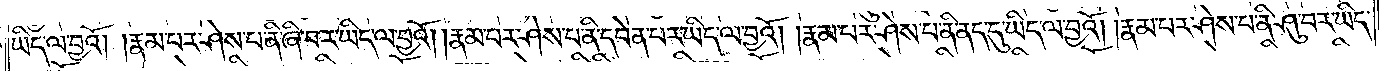ཡིད་ལ་བྱའོ། །རྣམ་པར་ཤེས་པ་ནི་ཞི་བར་ཡིད་ལ་བྱའོ། །རྣམ་པར་ཤེས་པ་ནི་དབེན་པར་ཡིད་ལ་བྱའོ། །རྣམ་པར་ཤེས་པ་ནི་ནད་དུ་ཡིད་ལ་བྱའོ། །རྣམ་པར་ཤེས་པ་ནི་ཤུ་བར་ཡིད་
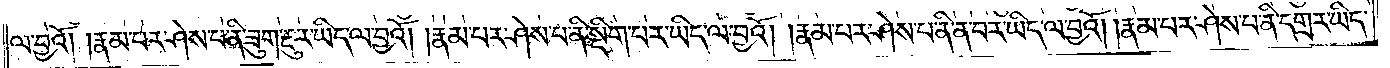ལ་བྱའོ། །རྣམ་པར་ཤེས་པ་ནི་ཟུག་རྔུར་ཡིད་ལ་བྱའོ། །རྣམ་པར་ཤེས་པ་ནི་སྡིག་པར་ཡིད་ལ་བྱའོ། །རྣམ་པར་ཤེས་པ་ནི་ན་བར་ཡིད་ལ་བྱའོ། །རྣམ་པར་ཤེས་པ་ནི་དགྲར་ཡིད་
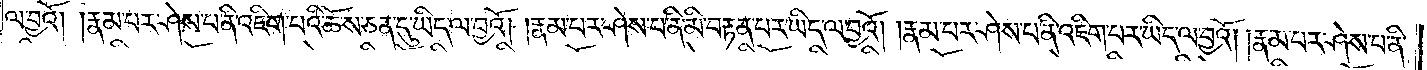ལ་བྱའོ། །རྣམ་པར་ཤེས་པ་ནི་འཇིག་པའི་ཆོས་ཅན་དུ་ཡིད་ལ་བྱའོ། །རྣམ་པར་ཤེས་པ་ནི་མི་བརྟན་པར་ཡིད་ལ་བྱའོ། །རྣམ་པར་ཤེས་པ་ནི་འཇིག་པར་ཡིད་ལ་བྱའོ། །རྣམ་པར་ཤེས་པ་ནི་
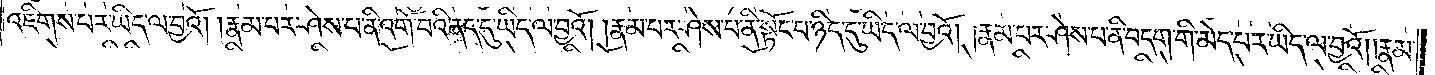འཇིགས་པར་ཡིད་ལ་བྱའོ། །རྣམ་པར་ཤེས་པ་ནི་འགོ་བའི་ནད་དུ་ཡིད་ལ་བྱའོ། །རྣམ་པར་ཤེས་པ་ནི་སྟོང་པ་ཉིད་དུ་ཡིད་ལ་བྱའོ། །རྣམ་པར་ཤེས་པ་ནི་བདག་གི་མེད་པར་ཡིད་ལ་བྱའོ། །རྣམ་
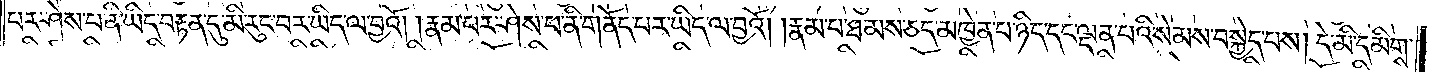པར་ཤེས་པ་ནི་ཡིད་བརྟན་དུ་མི་རུང་བར་ཡིད་ལ་བྱའོ། །རྣམ་པར་ཤེས་པ་ནི་གནོད་པར་ཡིད་ལ་བྱའོ། །རྣམ་པ་ཐམས་ཅད་མཁྱེན་པ་ཉིད་དང་ལྡན་པའི་སེམས་བསྐྱེད་པས། དེ་མི་དམིགས་
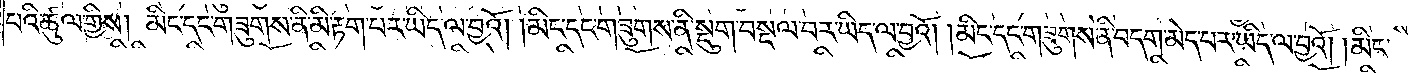པའི་ཚུལ་གྱིས། མིང་དང་གཟུགས་ནི་མི་རྟག་པར་ཡིད་ལ་བྱའོ། །མིང་དང་གཟུགས་ནི་སྡུག་བསྔལ་བར་ཡིད་ལ་བྱའོ། །མིང་དང་གཟུགས་ནི་བདག་མེད་པར་ཡིད་ལ་བྱའོ། །མིང་
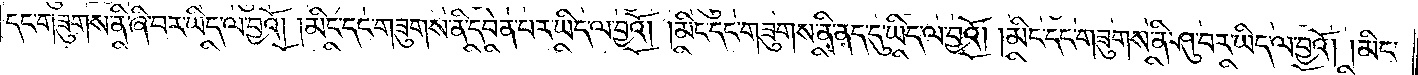དང་གཟུགས་ནི་ཞི་བར་ཡིད་ལ་བྱའོ། །མིང་དང་གཟུགས་ནི་དབེན་པར་ཡིད་ལ་བྱའོ། །མིང་དང་གཟུགས་ནི་ནད་དུ་ཡིད་ལ་བྱའོ། །མིང་དང་གཟུགས་ནི་ཤུ་བར་ཡིད་ལ་བྱའོ། །མིང་
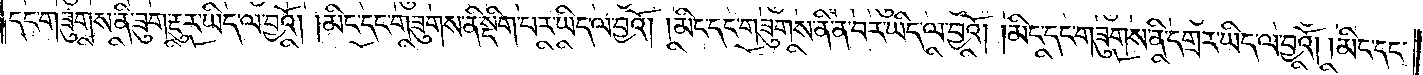དང་གཟུགས་ནི་ཟུག་རྔུར་ཡིད་ལ་བྱའོ། །མིང་དང་གཟུགས་ནི་སྡིག་པར་ཡིད་ལ་བྱའོ། །མིང་དང་གཟུགས་ནི་ན་བར་ཡིད་ལ་བྱའོ། །མིང་དང་གཟུགས་ནི་དགྲར་ཡིད་ལ་བྱའོ། །མིང་དང་
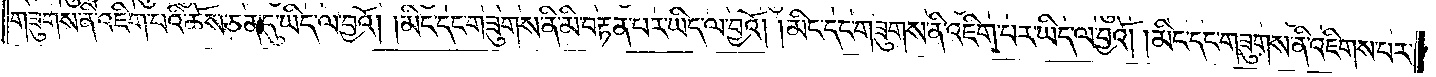གཟུགས་ནི་འཇིག་པའི་ཆོས་ཅན་དུ་ཡིད་ལ་བྱའོ། །མིང་དང་གཟུགས་ནི་མི་བརྟན་པར་ཡིད་ལ་བྱའོ། །མིང་དང་གཟུགས་ནི་འཇིག་པར་ཡིད་ལ་བྱའོ། །མིང་དང་གཟུགས་ནི་འཇིགས་པར་
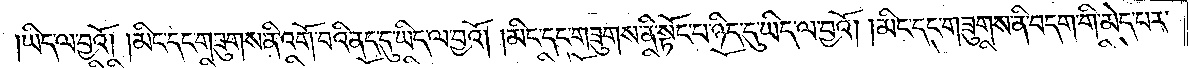ཡིད་ལ་བྱའོ། །མིང་དང་གཟུགས་ནི་འགོ་བའི་ནད་དུ་ཡིད་ལ་བྱའོ། །མིང་དང་གཟུགས་ནི་སྟོང་པ་ཉིད་དུ་ཡིད་ལ་བྱའོ། །མིང་དང་གཟུགས་ནི་བདག་གི་མེད་པར་
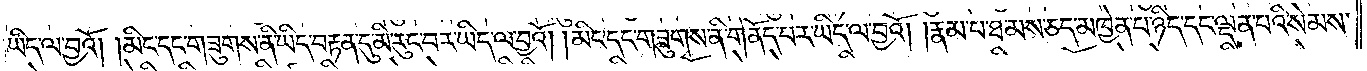ཡིད་ལ་བྱའོ། །མིང་དང་གཟུགས་ནི་ཡིད་བརྟན་དུ་མི་རུང་བར་ཡིད་ལ་བྱའོ། །མིང་དང་གཟུགས་ནི་གནོད་པར་ཡིད་ལ་བྱའོ། །རྣམ་པ་ཐམས་ཅད་མཁྱེན་པ་ཉིད་དང་ལྡན་པའི་སེམས་
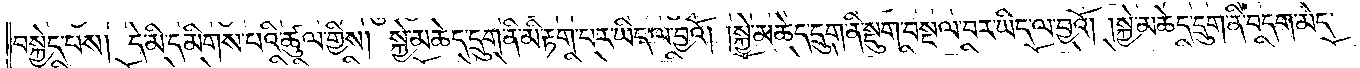བསྐྱེད་པས། དེ་མི་དམིགས་པའི་ཚུལ་གྱིས། སྐྱེ་མཆེད་དྲུག་ནི་མི་རྟག་པར་ཡིད་ལ་བྱའོ། །སྐྱེ་མཆེད་དྲུག་ནི་སྡུག་བསྔལ་བར་ཡིད་ལ་བྱའོ། །སྐྱེ་མཆེད་དྲུག་ནི་བདག་མེད་
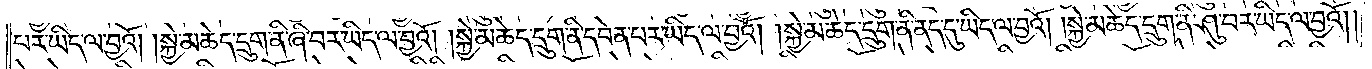པར་ཡིད་ལ་བྱའོ། །སྐྱེ་མཆེད་དྲུག་ནི་ཞི་བར་ཡིད་ལ་བྱའོ། །སྐྱེ་མཆེད་དྲུག་ནི་དབེན་པར་ཡིད་ལ་བྱའོ། །སྐྱེ་མཆེད་དྲུག་ནི་ནད་དུ་ཡིད་ལ་བྱའོ། །སྐྱེ་མཆེད་དྲུག་ནི་ཤུ་བར་ཡིད་ལ་བྱའོ། །
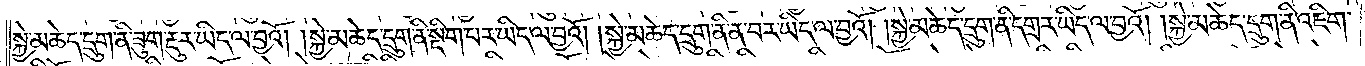སྐྱེ་མཆེད་དྲུག་ནི་ཟུག་རྔུར་ཡིད་ལ་བྱའོ། །སྐྱེ་མཆེད་དྲུག་ནི་སྡིག་པར་ཡིད་ལ་བྱའོ། །སྐྱེ་མཆེད་དྲུག་ནི་ན་བར་ཡིད་ལ་བྱའོ། །སྐྱེ་མཆེད་དྲུག་ནི་དགྲར་ཡིད་ལ་བྱའོ། །སྐྱེ་མཆེད་དྲུག་ནི་འཇིག་
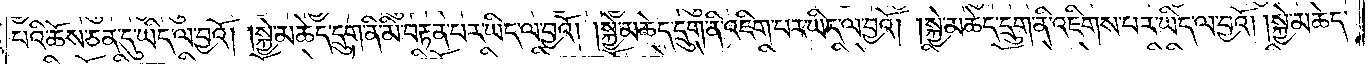པའི་ཆོས་ཅན་དུ་ཡིད་ལ་བྱའོ། །སྐྱེ་མཆེད་དྲུག་ནི་མི་བརྟན་པར་ཡིད་ལ་བྱའོ། །སྐྱེ་མཆེད་དྲུག་ནི་འཇིག་པར་ཡིད་ལ་བྱའོ། །སྐྱེ་མཆེད་དྲུག་ནི་འཇིགས་པར་ཡིད་ལ་བྱའོ། །སྐྱེ་མཆེད་
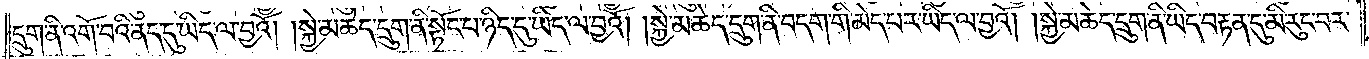དྲུག་ནི་འགོ་བའི་ནད་དུ་ཡིད་ལ་བྱའོ། །སྐྱེ་མཆེད་དྲུག་ནི་སྟོང་པ་ཉིད་དུ་ཡིད་ལ་བྱའོ། །སྐྱེ་མཆེད་དྲུག་ནི་བདག་གི་མེད་པར་ཡིད་ལ་བྱའོ། །སྐྱེ་མཆེད་དྲུག་ནི་ཡིད་བརྟན་དུ་མི་རུང་བར་
